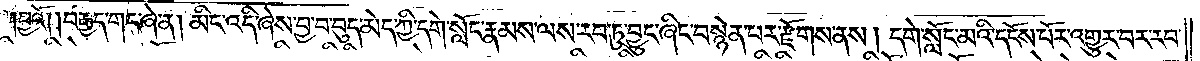བྱའོ། །བརྒྱད་གང་ཞེ་ན། མིང་འདི་ཞེས་བྱ་བ་བུད་མེད་ཀྱི་དགེ་སློང་རྣམས་ལས་རབ་ཏུ་བྱུང་ཞིང་བསྙེན་པར་རྫོགས་ནས། དགེ་སློང་མའི་དངོས་པོར་འགྱུར་བར་རབ་
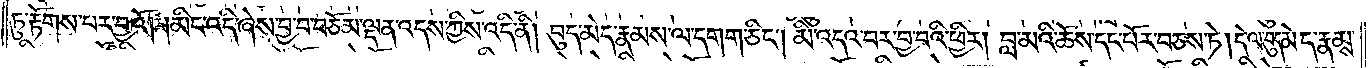ཏུ་རྟོགས་པར་བྱའོ། །མིང་འདི་ཞེས་བྱ་བ་བཅོམ་ལྡན་འདས་ཀྱིས་འདི་ནི། བུད་མེད་རྣམས་ལ་དགག་ཅིང༌། མི་འདའ་བར་བྱ་བའི་ཕྱིར། བླ་མའི་ཆོས་དང་པོར་བཅས་ཏེ། དེ་ལ་བུད་མེད་རྣམས་
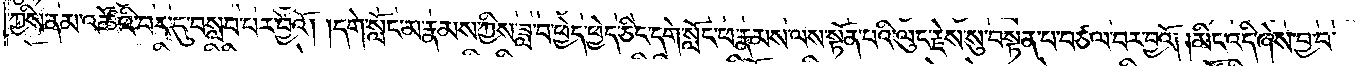ཀྱིས་ནམ་འཚོའི་བར་དུ་བསླབ་པར་བྱའོ། །དགེ་སློང་མ་རྣམས་ཀྱིས་ཟླ་བ་ཕྱེད་ཕྱེད་ཅིང་དགེ་སློང་ཕ་རྣམས་ལས་སྟོན་པའི་ལུང་རྗེས་སུ་བསྟན་པ་བཙལ་བར་བྱའོ། །མིང་འདི་ཞེས་བྱ་བ་
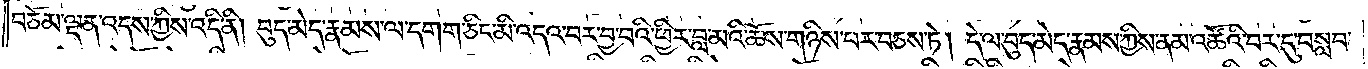བཅོམ་ལྡན་འདས་ཀྱིས་འདི་ནི། བུད་མེད་རྣམས་ལ་དགག་ཅིང་མི་འདའ་བར་བྱ་བའི་ཕྱིར་བླ་མའི་ཆོས་གཉིས་པར་བཅས་ཏེ། དེ་ལ་བུད་མེད་རྣམས་ཀྱིས་ནམ་འཚོའི་བར་དུ་བསླབ་
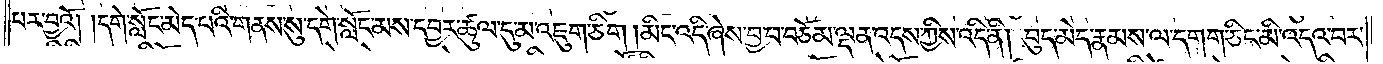པར་བྱའོ། །དགེ་སློང་མེད་པའི་གནས་སུ་དགེ་སློང་མས་དབྱར་ཚུལ་དུ་མ་འཇུག་ཅིག། མིང་འདི་ཞེས་བྱ་བ་བཅོམ་ལྡན་འདས་ཀྱིས་འདི་ནི། བུད་མེད་རྣམས་ལ་དགག་ཅིང་མི་འདའ་བར་
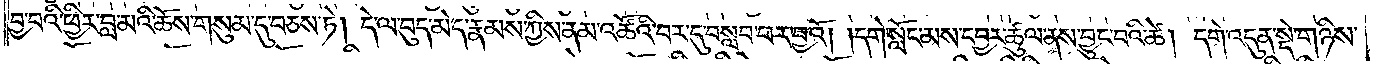བྱ་བའི་ཕྱིར་བླ་མའི་ཆོས་གསུམ་དུ་བཅས་ཏེ། དེ་ལ་བུད་མེད་རྣམས་ཀྱིས་ནམ་འཚོའི་བར་དུ་བསླབ་པར་བྱའོ། །དགེ་སློང་མས་དབྱར་ཚུལ་ནས་བྱུང་བའི་ཚེ། དགེ་འདུན་སྡེ་གཉིས་
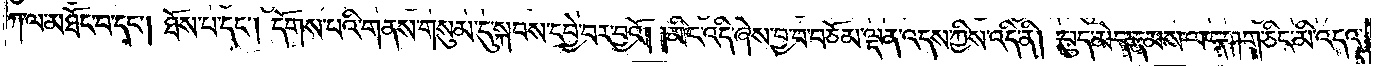ཀ་ལ་མཐོང་བ་དང༌། ཐོས་པ་དང༌། དོགས་པའི་གནས་གསུམ་དུ་སྐབས་དབྱེ་བར་བྱའོ། །མིང་འདི་ཞེས་བྱ་བ་བཅོམ་ལྡན་འདས་ཀྱིས་འདི་ནི། བུད་མེད་རྣམས་ལ་དགག་ཅིང་མི་འདའ་
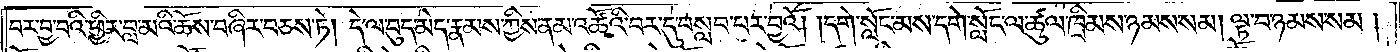བར་བྱ་བའི་ཕྱིར་བླ་མའི་ཆོས་བཞིར་བཅས་ཏེ། དེ་ལ་བུད་མེད་རྣམས་ཀྱིས་ནམ་འཚོའི་བར་དུ་བསླབ་པར་བྱའོ། །དགེ་སློང་མས་དགེ་སློང་ལ་ཚུལ་ཁྲིམས་ཉམས་མ། ལྟ་བ་ཉམས་སམ།
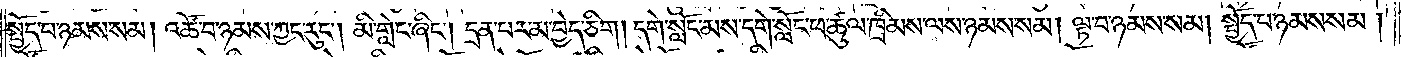སྤྱོད་པ་ཉམས་སམ། འཚོ་བ་ཉམས་ཀྱང་རུང༌། མི་གླེང་ཞིང༌། དྲན་པར་མ་བྱེད་ཅིག །དགེ་སློང་མས་དགེ་སློང་ཕ་ཚུལ་ཁྲིམས་ལས་ཉམས་སམ། ལྟ་བ་ཉམས་སམ། སྤྱོད་པ་ཉམས་སམ།
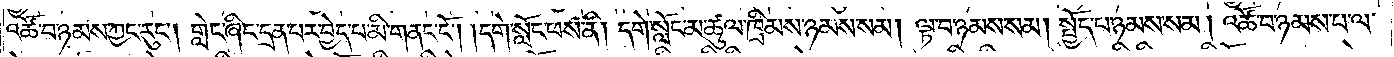འཚོ་བ་ཉམས་ཀྱང་རུང༌། གླེང་ཞིང་དྲན་པར་བྱེད་པ་མི་གནང་ངོ༌། །དགེ་སློང་ཕས་ནི། དགེ་སློང་མ་ཚུལ་ཁྲིམས་ཉམས་སམ། ལྟ་བ་ཉམས་སམ། སྤྱོད་པ་ཉམས་སམ། འཚོ་བ་ཉམས་པ་ལ་
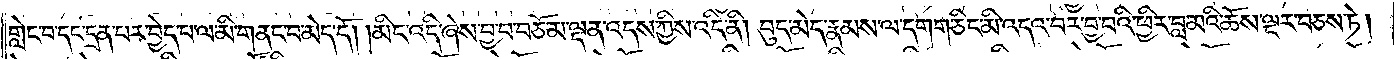གླིང་བ་དང་དྲན་པར་བྱེད་པ་ལ་མི་གནང་བ་མེད་དོ། །མིང་འདི་ཞེས་བྱ་བ་བཅོམ་ལྡན་འདས་ཀྱིས་འདི་ནི། བུད་མེད་རྣམས་ལ་དགག་ཅིང་མི་འདའ་བར་བྱ་བའི་ཕྱིར་བླ་མའི་ཆོས་ལྔར་བཅས་ཏེ།
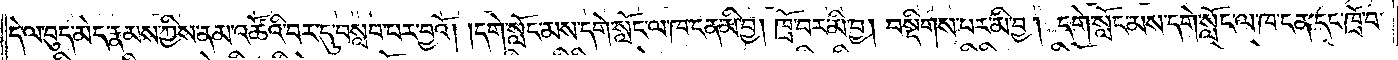དེ་ལ་བུད་མེད་རྣམས་ཀྱིས་ནམ་འཚོའི་བར་དུ་བསླབ་པར་བྱའོ། །དགེ་སློང་མས་དགེ་སློང་ལ་ཁ་ངན་མི་བྱ། ཁྲོ་བར་མི་བྱ། བསྡིགས་པར་མི་བྱ། དགེ་སློང་མས་དགེ་སློང་ལ་ཁ་ངན་དང་ཁྲོ་བ་
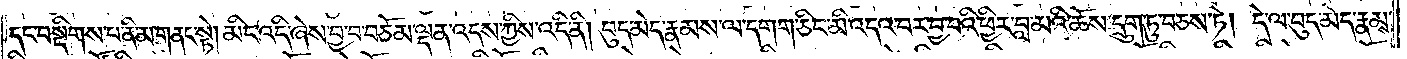དང་བསྡིགས་པ་ནི་མ་གནང་སྟེ། མིང་འདི་ཞེས་བྱ་བ་བཅོམ་ལྡན་འདས་ཀྱིས་འདི་ནི། བུད་མེད་རྣམས་ལ་དགག་ཅིང་མི་འདའ་བར་བྱ་བའི་ཕྱིར་བླ་མའི་ཆོས་དྲུག་ཏུ་བཅས་ཏེ། དེ་ལ་བུད་མེད་རྣམས་
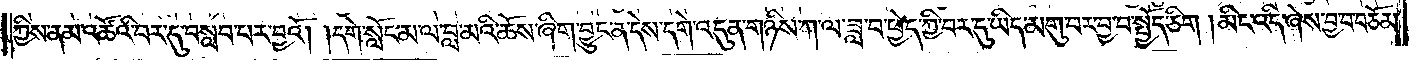ཀྱིས་ནམ་འཚོའི་བར་དུ་བསླབ་པར་བྱའོ། །དགེ་སློང་མ་ལ་བླ་མའི་ཆོས་ཞིག་བྱུང་ན་དེས་དགེ་འདུན་གཉིས་ཀ་ལ་ཟླ་བ་ཕྱེད་ཀྱི་བར་དུ་ཡིད་མགུ་བར་བྱ་བ་སྤྱོད་ཅིག །མིང་འདི་ཞེས་བྱ་བ་བཅོམ་
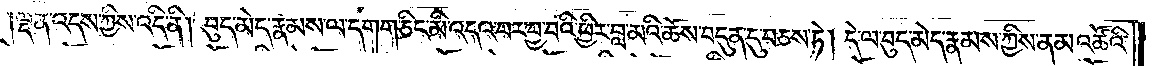ལྡན་འདས་ཀྱིས་འདི་ནི། བུད་མེད་རྣམས་ལ་དགག་ཅིང་མི་འདའ་བར་བྱ་བའི་ཕྱིར་བླ་མའི་ཆོས་བདུན་དུ་བཅས་ཏེ། དེ་ལ་བུད་མེད་རྣམས་ཀྱིས་ནམ་འཚོའི་
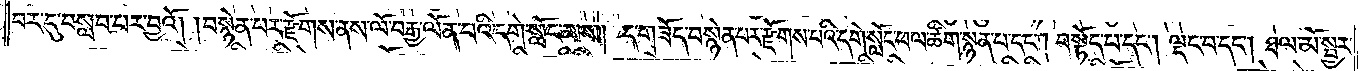བར་དུ་བསླབ་པར་བྱའོ། །བསྙེན་པར་རྫོགས་ནས་ལོ་བརྒྱ་ལོན་པའི་དགེ་སློང་མས། ད་གཟོད་བསྙེན་པར་རྫོགས་པའི་དགེ་སློང་ཕ་ལ་ཚིག་སྙན་པ་དང༌། བསྟོད་པ་དང༌། ལྡང་བ་དང༌། ཐལ་མོ་སྦྱར་
